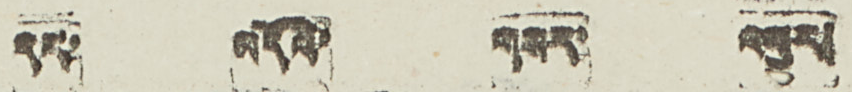དར་ མདོའི་ གསར་ འགྱུར།
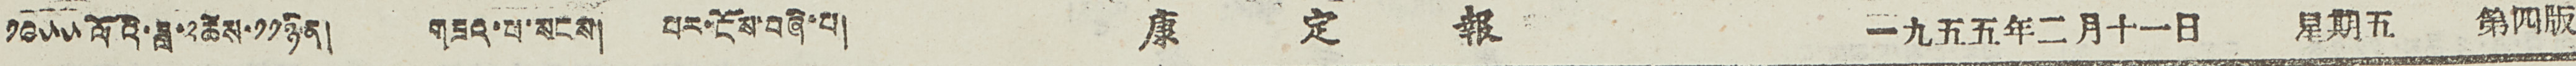༡༩༥༥ ལོའི་ཟླ་༢ཚེས་༡༡ཉིན། གཟའ་པ་སངས། པར་ངོས་བཞི་པ། 康 定 報 一九五五年二月十一日 星期五 第四版
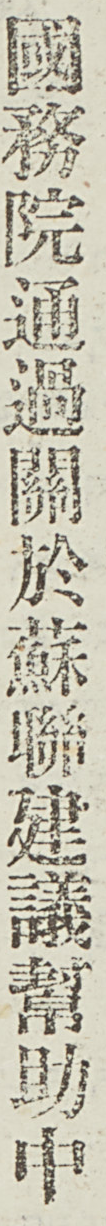國務院通過關於蘇聯建議幫助中
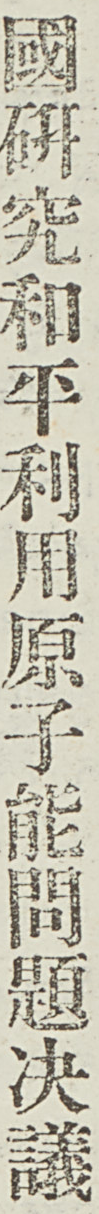國研究和平利用原子能問題決議
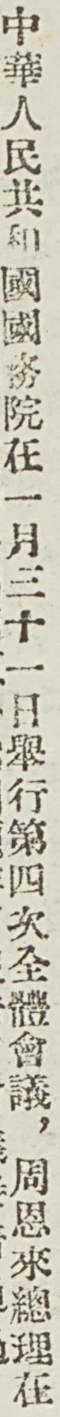中華人民共和國國務院在一月三十一日舉行第四次全體會議，周恩來總理在
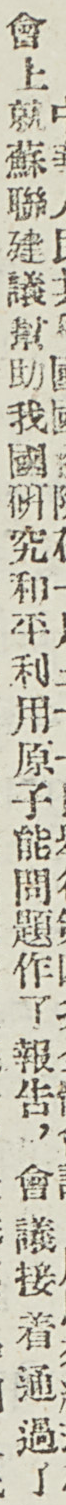會上就蘇聯建議幫助我國研究和平利用原子能問題作了報告，會議接着通過了
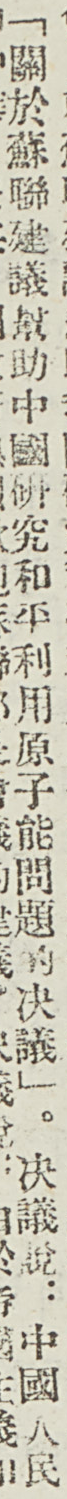「關於蘇聯建議幫助中國研究和平醫用原子能問題的決議」。決議說：中國人民
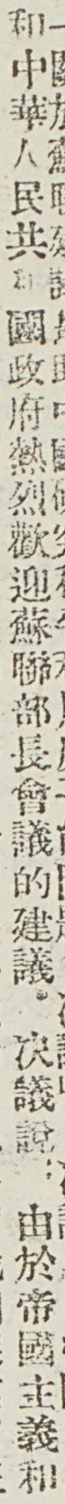和中華人民共和國政府熱烈歡迎蘇聯部長會議的建議。決議說：由於帝國主義和
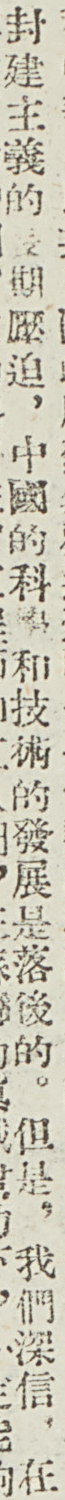封建主義的侵略壓迫，中國的科學核技術的發展是落後的。但是，我們深信，在
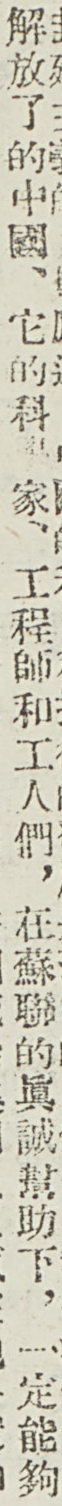解放了的中國，它的科學家、工程師和工人們，在蘇聯的眞誠幫助下，一定能夠
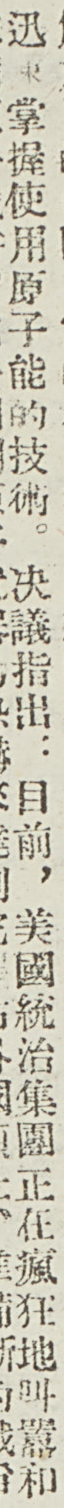迅速掌握使用原子能的技術。決議指出：目前，美國統治集團正在瘋狂地叫囂和
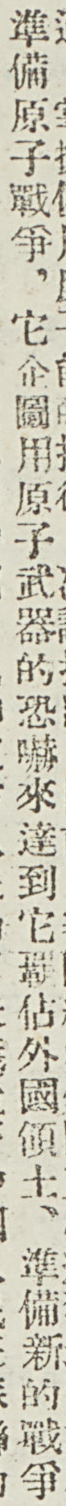準備原子戰爭，它企圖用原子武器的恐嚇來達到它侵佔外國領土、準備新的戰爭
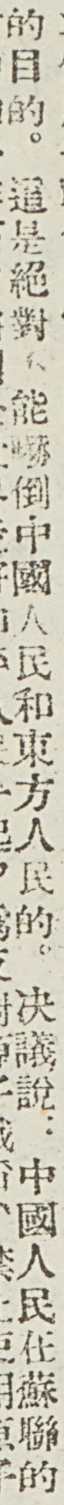的目的。這是絕對不能嚇倒中國人民和東方人民的。決議說：中國人民在蘇聯的
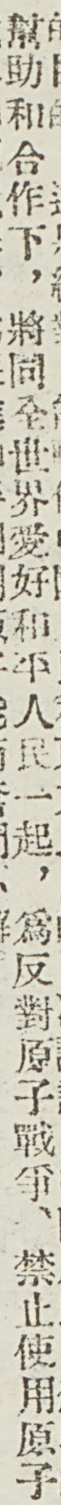幫助和合作下，將同全世界愛好和平人民一起，爲反對原子戰爭、禁止使用原子
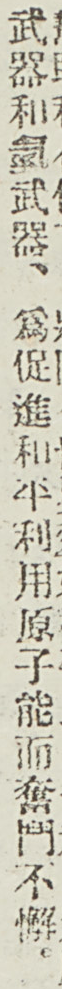武器和氫武器、爲促進和平利用原子能而奮鬥不懈。
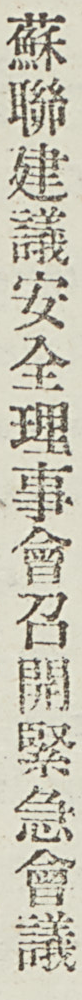蘇聯建議安全理事會召開緊急會議
